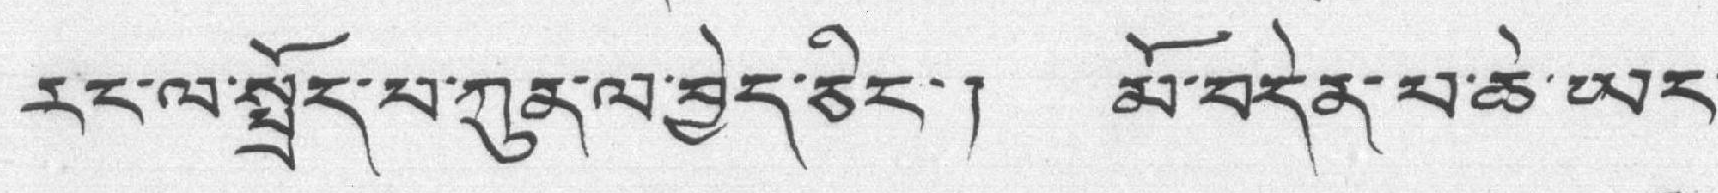རང་ལ་སྤྲོད་པ་ཀུན་ལ་བྱེད་ཅིང་། མོ་བདེན་པ་ཆེ་ཡང་
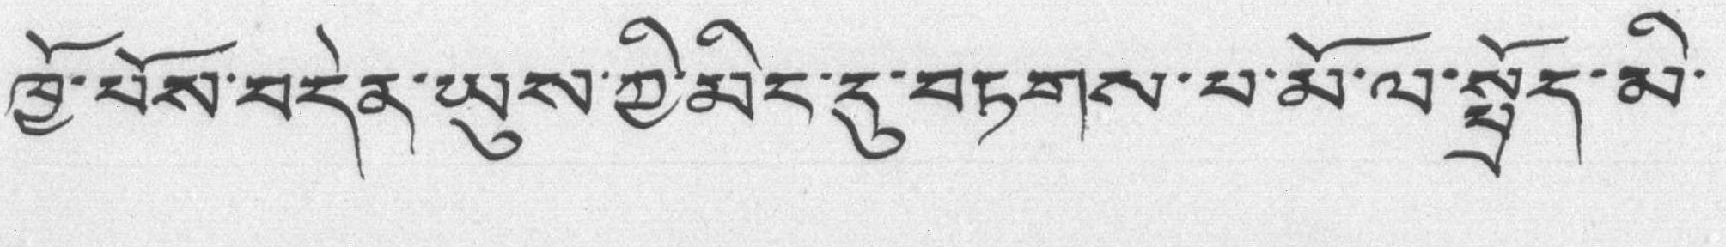ཁྱོ་པོས་བདེན་ཡུས་ཀྱི་མིང་དུ་བཏགས་པ་མོ་ལ་སྤྲོད་མི་
